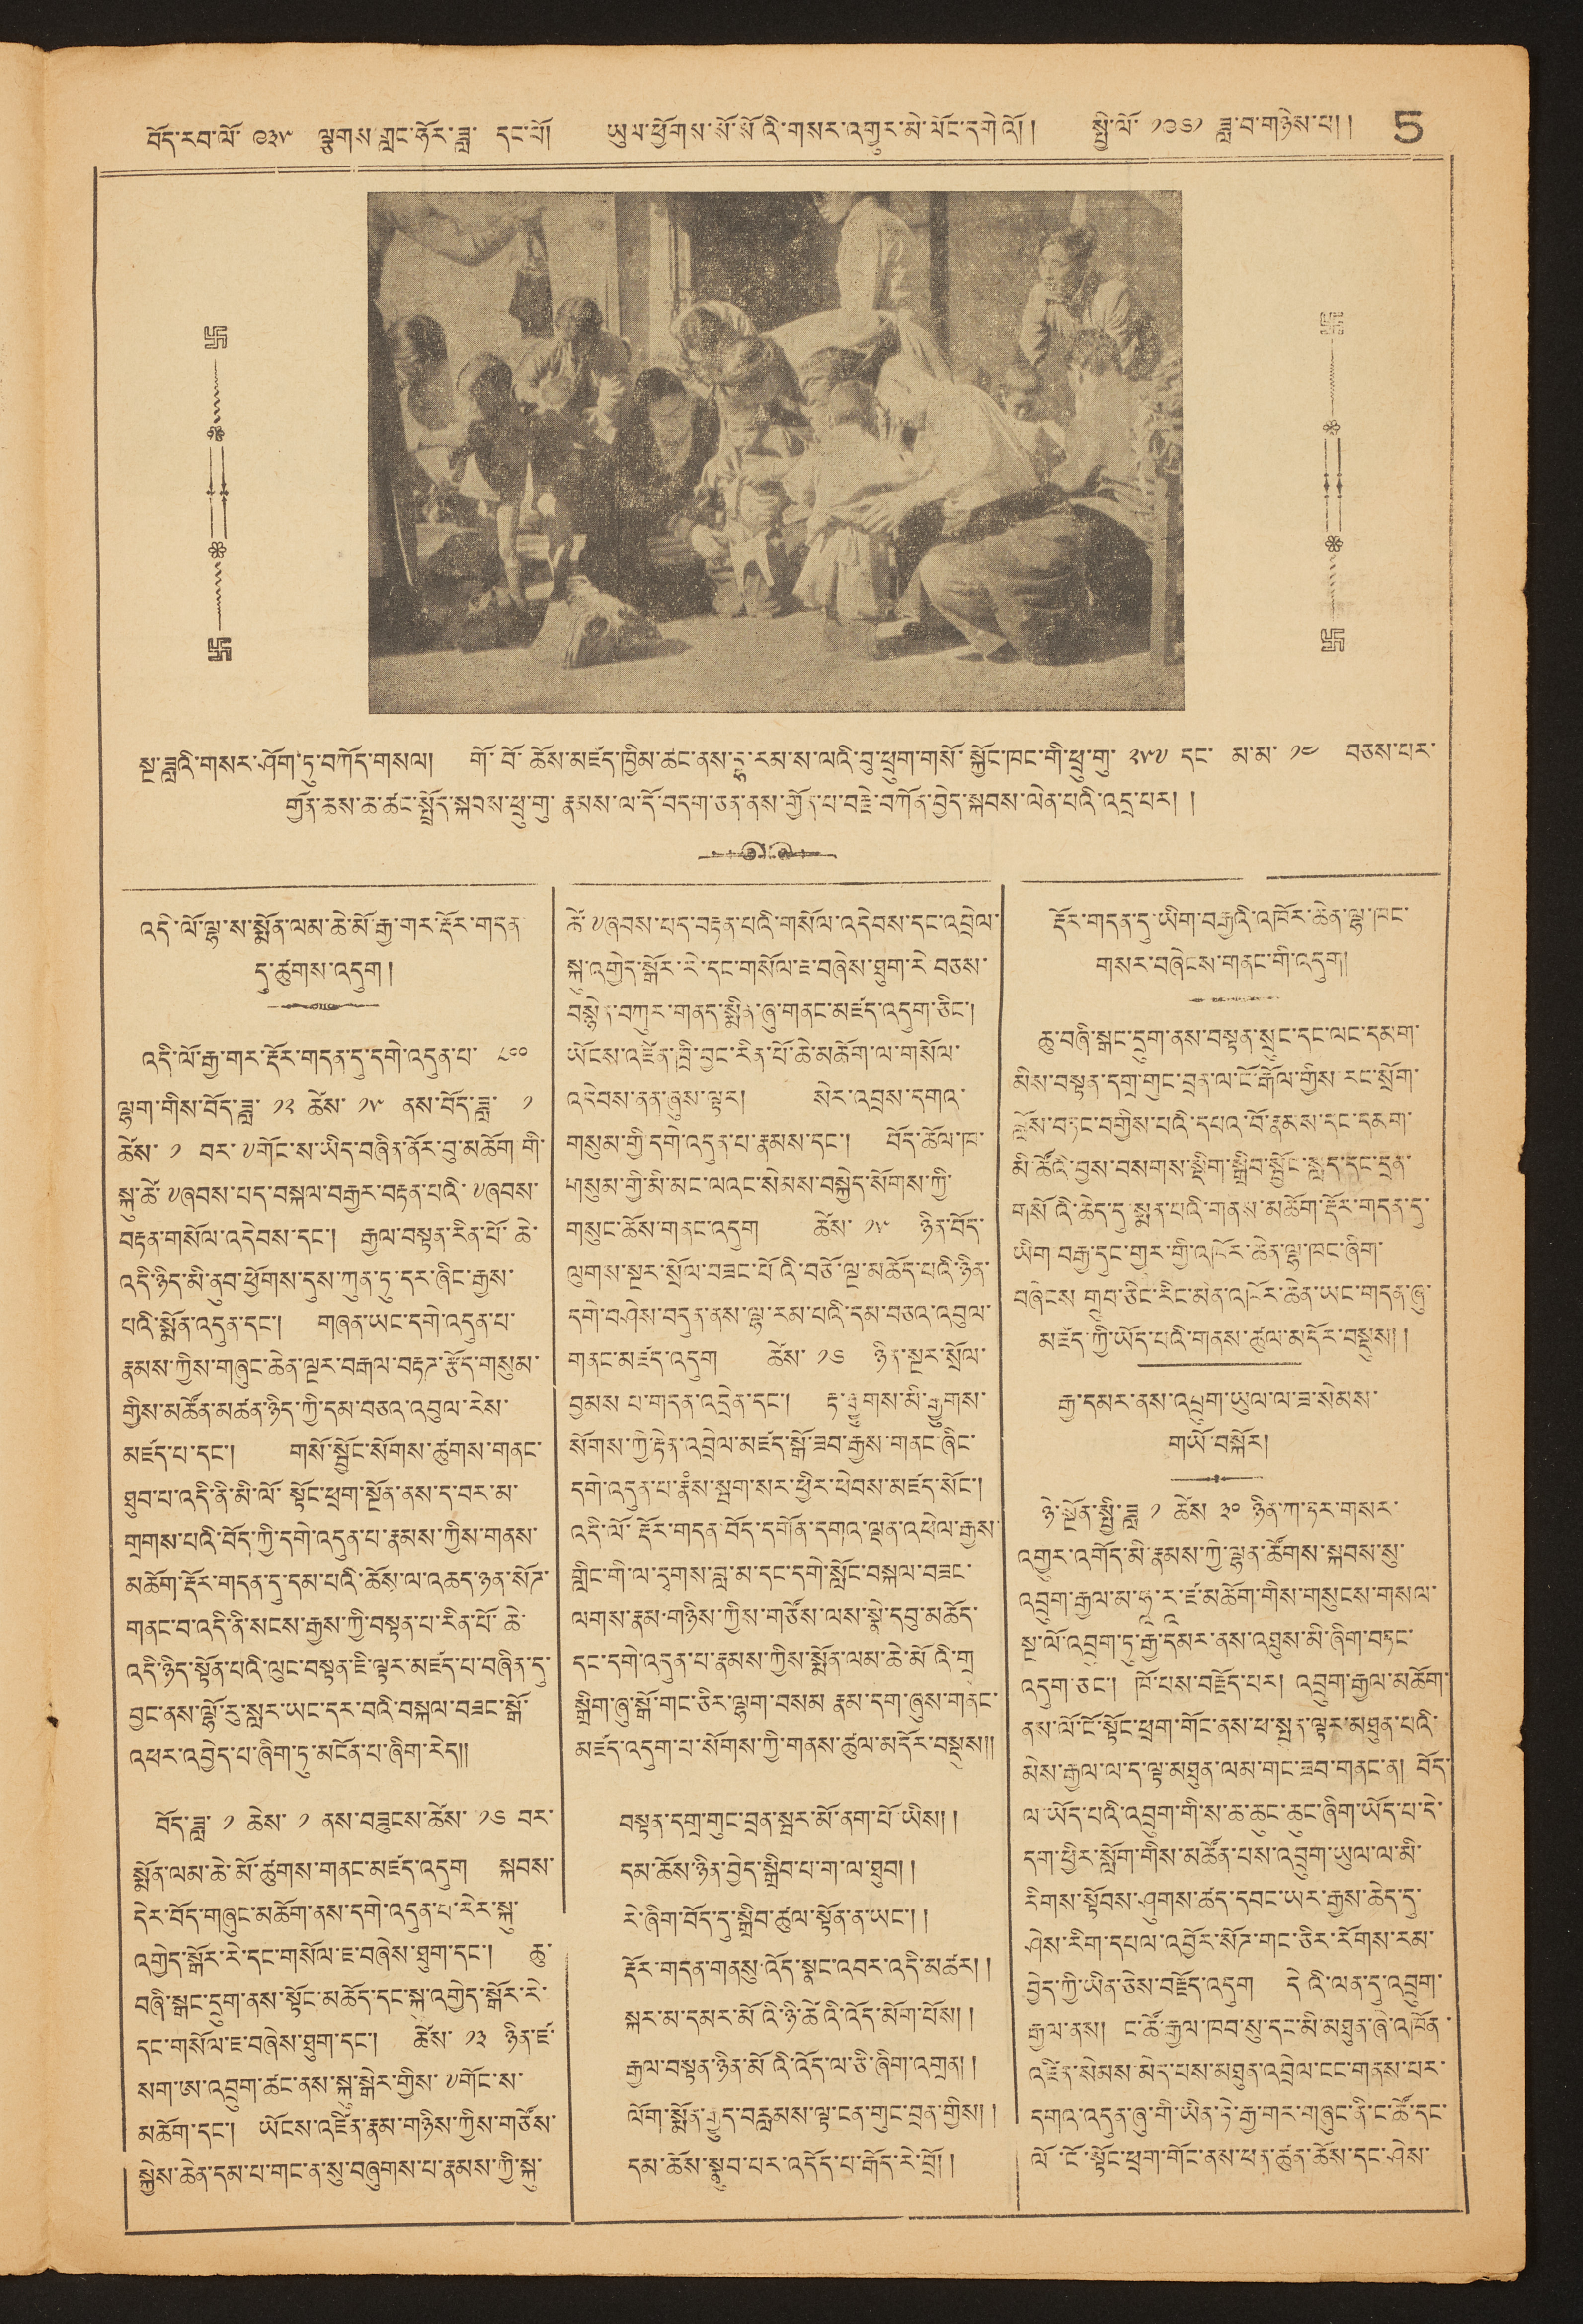བོད་རབ་ལོ་ ༩༣༥ ལྕགས་གླང་ཧོར་ཟླ་ དང་པོ། ཡུལ་ཕྱོགས་སོ་སོའི་གསར་འགྱུར་མི་ལོང་དགེའོ།། སྤྱི་ལོ་ ༡༩༦༡ ཟླ་བ་གཉིས་པ།། 5
སྔ་ཟླའི་གསར་ཤོག་ཏུ་བཀོད་གསལ། གོ་བོ་ཆོས་མཛད་ཁྱིམ་ཚང་ནས་དྷ་རམ་ས་ལའི་བུ་ཕྲུག་གསོ་སྐྱོང་ཁང་གི་ཕྲུ་གུ་ ༢༥༧ དང་ མ་མ་ ༡༤ བཅས་པར་
གྱོན་ཆས་ཆ་ཚང་སྤྲོད་སྐབས་ཕྲུ་གུ་རྣམས་ལ་དོ་བདག་ཅན་ནས་གྱོན་པ་བརྗེ་བཀོན་བྱེད་སྐབས་ལེན་པའི་འདྲ་པར། །
འདི་ལོ་ལྷ་ས་སྨོན་ལམ་ཆེ་མོ་རྒྱ་གར་རྡོར་གདན་
དུ་ཚུགས་འདུག །
འདི་ལོ་རྒྱ་གར་རྡོར་གདན་དུ་དགེ་འདུན་པ་ ༨༠༠
ལྷག་གིས་བོད་ཟླ་ ༡༢་ ཚེས་ ༡༥་ ནས་བོད་ཟླ་ ༡
ཚེས་ ༡ བར་༸གོང་ས་ཡིད་བཞིན་ནོར་བུ་མཆོག གི་
སྐུ་ཚེ་༸ཞབས་པད་བསྐལ་བརྒྱར་བརྟན་པའི་༸ཞབས་
བརྟན་གསོལ་འདེབས་དང་། རྒྱལ་བསྟན་རིན་པོ་ཆེ་
འདི་ཉིད་མི་ནུབ་ཕྱོགས་དུས་ཀུན་ཏུ་དར་ཞིང་རྒྱས་
པའི་སྨོན་འདུན་དང་། གཞན་ཡང་དགེ་འདུན་པ་
རྣམས་ཀྱིས་གཞུང་ཆེན་ལྔར་བརྒལ་བརྟཊ་རྩོད་གསུམ་
གྱིས་མཚོན་མཚན་ཉིད་ཀྱི་དམ་བཅའ་འབུལ་རེས་
མཛད་པ་དང་། གསོ་སྦྱོང་སོགས་ཚུགས་གནང་
ཐུབ་པའི་འདི་ནི་མི་ལོ་སྟོང་ཕྲག་སྔོན་ནས་ད་བར་མ་
གྲགས་པའི་བོད་ཀྱི་དགེ་འདུན་པ་རྣམས་ཀྱིས་གནས་
མཆོག་རྡོར་གདན་དུ་དམ་པའི་ཆོས་ལ་འཆད་ཉན་སོཊ་
གནང་བ་འདི་ནི་སངས་རྒྱས་ཀྱི་བསྟན་པ་རིན་པོ་ཆེ་
འདི་ཉིད་སྟོན་པའི་ལུང་བསྟན་ཇི་ལྟར་མཛད་པ་བཞིན་དུ་
བྱང་ནས་ལྷོ་རུ་སླར་ཡང་དར་བའི་བསྐལ་བཟང་སྒོ་
འཕར་འབྱེད་པ་ཞིག་ཏུ་མངོན་པ་ཞིག་རེད།།
བོད་ཟླ་ ༡ ཚེས་ ༡ ནས་བཟུངས་ཚེས་ ༡༦ བར་
སྨོན་ལམ་ཆེན་མོ་ཚུགས་གནང་མཛད་འདུག སྐབས་
དེར་བོད་གཞུང་མཆོག་ནས་དགེ་འདུན་པ་རེར་སྐུ་
འགྱེད་སྒོར་རེ་དང་གསོལ་ཇ་བཞེས་ཐུག་དང་། ཆུ་
བཞི་སྒང་དྲུག་ནས་སྟོང་མཆོད་དང་སྐུ་འགྱེད་སྒོར་རེ་
དང་གསོལ་ཇ་བཞེས་ཐུག་དང་། ཚེས་ ༡༣ ཉིན་ཛ་
སག་ཨ་འབྲུག་ཚང་ནས་སྐུ་སྒེར་གྱིས་༸གོང་ས་
མཆོག་དང་། ཡོངས་འཛིན་རྣམ་གཉིས་ཀྱིས་གཙོས་
སྐྱེས་ཆེན་དམ་པ་གང་ན་སུ་བཞུགས་པ་རྣམས་ཀྱི་སྐུ་
ཚེ་༸ཞབས་པད་བརྟན་པའི་གསོལ་འདེབས་དང་འབྲེལ་
སྐུ་འགྱེད་སྒོར་རེ་དང་གསོལ་ཇ་བཞེས་ཐུག་རེ བཅས་
བསྙེན་བཀུར་གནད་སྨིན་ཞུ་གནང་མཛད་འདུག་ཅིང་།
ཡོངས་འཛིན་ཁྲི་བྱང་རིན་པོ་ཆེ་མཆོག་ལ་གསོལ་
འདེབས་ནན་ཞུས་ལྟར། སེར་འབྲས་དགའ་
གསུམ་གྱི་དགེ་འདུན་པ་རྣམས་དང་། བོད་ཆོལ་ཁ་
གསུམ་གྱི་མི་མང་ལའང་སེམས་བསྐྱེད་སོགས་ཀྱི་
གསུང་ཆོས་གནང་འདུག ཚེས ༡༥ ཉིན་བོད་
ལུགས་སྔར་སྲོལ་བཟང་པོའི་བཅོ་ལྔ་མཆོད་པའི་ཉིན་
དགེ་བཤེས་བདུན་ནས་ལྷ་རམ་པའི་དམ་བཅའ་འབུལ་
གནང་མཛད་འདུག ཚེས་ ༡༦ ཉིན་ལྔར་སྲོལ་
བྱམས པ་གདན་འདྲེན་དང་། རྟ་རྒྱུགས་མི་རྒྱུགས་
སོགས་ཀྱི་རྟེན་འབྲེལ་མཛད་སྒོ་ཟབ་རྒྱས་གནང་ཞིང་
དགེ་འདུན་པ་རྣཾས་སྦག་སར་ཕྱིར་ཕེབས་མཛད་སོང་།
འདི་ལོ་རྡོར་གདན་བོད་དགོན་དགའ་ལྡན་འཕེལ་རྒྱས་
གླིང་གི་ལ་དྭགས་བླ་མ་དང་དགེ་སློང་བསྐལ་བཟང་
ལགས་རྣམ་གཉིས་ཀྱིས་གཙོན་ལས་སྣེ་དབུ་མཆོད་
དང་དགེ་འདུན་པ་རྣམས་ཀྱིས་སྨོན་ལམ་ཆེ་མོའི་གྲ
སྒྲིག་ཞུ་སྒོ་གང་ཅིར་ལྷག་བསམ རྣམ་དག་ཞུས་གནང་
མཛད་འདུག་པ་སོགས་ཀྱི་གནས་ཚུལ་མདོར་བསྡུས།།
བསྟན་དགྲ་གུང་བྲན་སྦར་མོ་ནག་པོ་ཡིས།།
དམ་ཆོས་ཉིན་བྱེད་སྒྲིབ་པ་ག་ལ་ཐུབ།།
རེ་ཞིག་བོད་དུ་སྒྲིབ་ཚུལ་སྟོན་ན་ཡང་།།
རྡོར་གདན་གནསུ་འོད་སྣང་འབར་འདི་མཚར།།
སྐར་མ་དམར་མོའི་ཉི་ཚེའི་འོད་མོག་པོས།།
རྒྱལ་བསྟན་ཉིན་མོའི་འོད་ལ་ཅི་ཞིག་འགྲན།།
ལོག་སྨོན་རྒྱུད་བརླམས་ལྟ་ངན་གུང་བྲན་གྱིས།།
དམ་ཆོས་སྣུབ་པར་འདོད་པ་རྒོད་རེ་བྲོ།།
རྡོར་གདན་དུ་ཡིག་བརྒྱའི་འཁོར་ཆེན་ལྷ་ཁང་
གསར་བཞེངས་གནང་གི་འདུག།
ཆུ་བཞི་སྒང་དྲུག་ནས་བསྟན་སྲུང་དང་ལང་དམག་
མིས་བསྟན་དགྲ་གུང་བྲན་ལ་ངོ་རྒོལ་གྱིས་རང་སྲོག་
བློས་བཏང་བགྱིས་པའི་དཔའ་བོ་རྣམས་དང་དམག་
མི་ཚོའི་བྱས་བསགས་སྡིག་སྒྲིབ་སྦྱོང་སླད་དང་དྲན་
དསོའི་ཆེད་དུ་སྨན་པའི་གནས་མཆོག་རྡོར་གདན་དུ་
ཡིག བརྒྱ་དུང་གྱར་གྱི་འཁོར་ཆེན་ལྷ་ཁང་ཞིག་
བཞེངས གྲུབ་ཅིང་རིང་མིན་འཁོར་ཆེན་ཡང་གདན་ཞུ་
མཛད་ཀྱི་ཡོད་པའི་གནས་ཚུལ་མདོར་བསྡུས།།
རྒྱ་དམར་ནས་འབྲུག་ཡུལ་ལ་ཟ་སེམས་
གཡོ་བསྐོར།
ཉེ་སྔོན་སྤྱི་ཟླ ༡ ཚེས་ ༣༠ ཉིན་ཀ་ཏར་གསར་
འགྱུར་འགོད་མི་རྣམས་ཀྱི་ལྷན་ཚོགས་སྐབས་སུ་
འབྲུག་རྒྱལ་མ་ཧཱ་རཱ་ཛ་མཆོག་གིས་གསུངས་གསལ་
སྔ་ལོ་འབྲུག་ཏུ་རྒྱ་དམར་ནས་འཐུས་མི་ཞིག་བཏང་
འདུག་ཅང་། ཁོ་པས་བརྗོད་པར། འབྲུག་རྒྱལ་མཆོག་
ནས་ལོ་ངོ་སྟོང་ཕྲག་གོང་ནས་སྤུན་ལྟར་མཐུན་པའི་
མེས་རྒྱལ་ལ་ད་ལྟ་མཐུན་ལམ་གང་ཟབ་གནང་ན། བོད་
ལ་ཡོད་པའི་འབྲུག་གི་ས་ཆ་ཆུང་ཆུང་ཞིག་ཡོད་པ་དེ་
དག་ཕྱིར་སློག་གིས་མཚོན་པས་འབྲུག་ཡུལ་ལ་མི་
རིགས་སྟོབས་ཤུགས་ཚད་དབང་ཡར་རྒྱས་ཆེད་དུ་
ཤེས་རིག་དཔལ་འབྱོར་སོཊ་གང་ཅིར་རོགས་རམ་
བྱེད་ཀྱི་ཡིན་ཅེས་བརྗོད་འདུག དེའི་ལན་དུ་འབྲུག་
རྒྱལ་ནས། ང་ཚོ་རྒྱལ་ཁབ་སུ་དང་མི་མཐུན་ཞེ་འཁོན་
འཛིན་སེམས་མེད་པས་མཐུན་འབྲེལ་ངང་གནས་པར་
དགའ་འདུན་ཞུ་གི་ཡིན་ཏེ་རྒྱ་གར་གཞུང་ནི་ང་ཚོ་དང་
ལོ་ངོ་སྟོང་ཕྲག་གོང་ནས་ཕན་ཚུན་ཆོས་དང་ཤེས་
